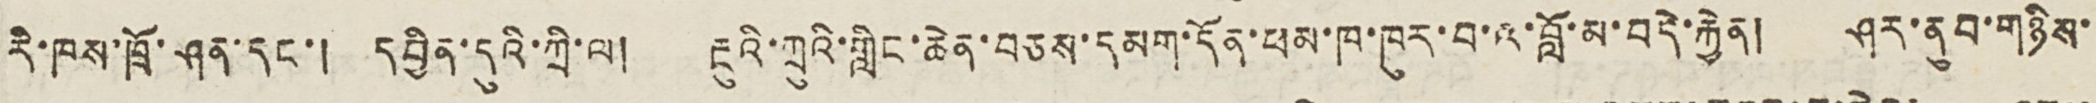རི་ཁས་ཁྲོ་ཤན་དང་། དབྱིན་དུའི་ཀྲི་ལ། རྔུའི་ཀྲུའི་གླིང་ཆེན་བཅས་དམག་དོན་ཕམ་ཁ་ཁུར་བ་འ་བློ་མ་བདེ་རྐྱེན། ཤར་ནུབ་གཉིས་
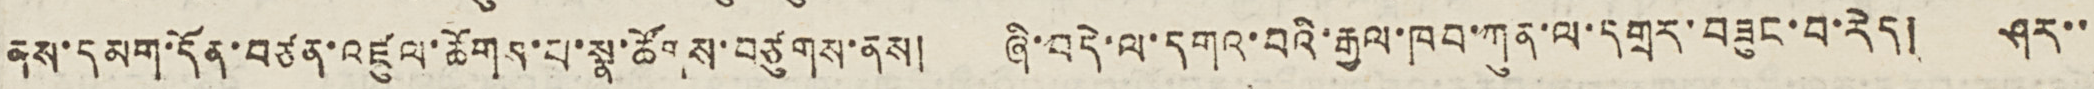ནས་དམག་དོན་བཙན་འཛུལ་ཆོགས་པ་སྣ་ཚོགས་བཙུགས་ནས། ཞི་བདེ་ལ་དགའ་བའི་རྒྱལ་ཁབ་ཀུན་ལ་དགྲར་བཟུང་བ་རེད། ཤར་་
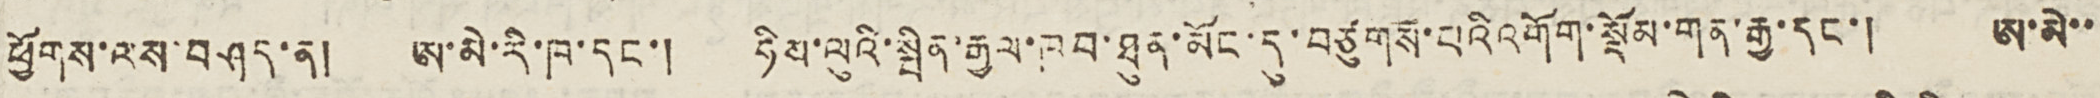ཕྱོགས་ལས་བཤད་ན། ཨ་མེ་རི་ཁ་དང་། ཧིས་ལུའི་སྦིན་རྒྱལ་ཁབ་ཐུན་མོང་དུ་བཙུགས་པའི་འགོག་སྡོམ་གན་རྒྱ་དང་། ཨ་མེ་་
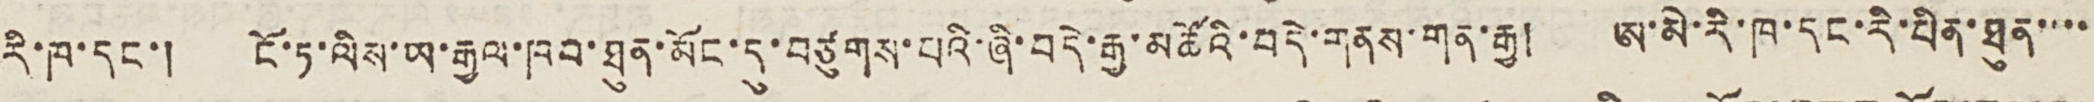རི་ཁ་དང་། ངོ་ཏ་ལིས་ཡ་རྒྱལ་ཁབ་ཐུན་མོང་དུ་བཙུགས་པའི་ཞི་བདེ་རྒྱ་མཚོའི་བདེ་གནས་གན་རྒྱ། ཨ་མེ་རི་ཁ་དང་རི་པིན་ཐུན་་་་
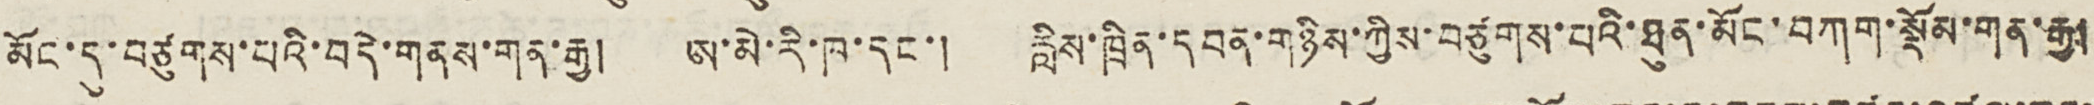མོང་དུ་བཙུགས་པའི་བདེ་གནས་གན་རྒྱ། ཨ་མེ་རི་ཁ་དང་། རླིས་ཁྲིན་དབན་གཉིས་ཀྱིས་བཙུགས་པའི་ཐུན་མོང་བཀག་སྡོམ་གན་རྒྱ།
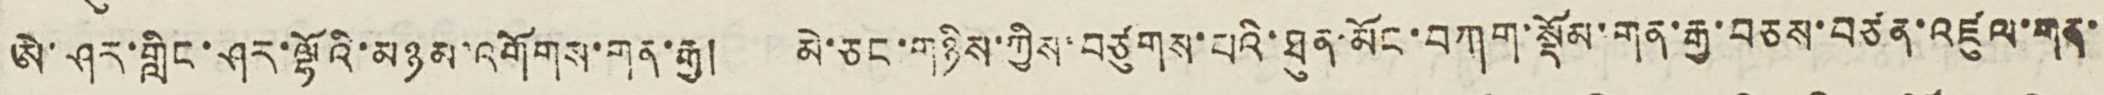ཨེ་ཤར་གླིང་ཤར་ལྷོའི་མཉམ་འགོགས་གན་རྒྱ། མེ་ཅང་གཉིས་ཀྱིས་བཙུགས་པའི་ཐུན་མོང་བཀག་སྡོམ་གན་རྒྱ་བཅས་བཙན་འཛུལ་གན་
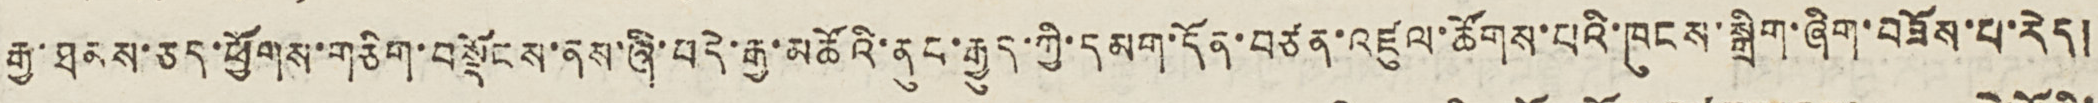རྒྱ་ཐམས་ཅད་ཕྱོགས་གཅིག་བསྡོངས་ནས་ཞི་བདེ་རྒྱ་མཚོའི་ནུབ་རྒྱུད་ཀྱི་དམག་དོན་བཙན་འཛུལ་ཚོགས་པའི་ཁུངས་སྒྲིག་ཞིག་བཟོས་པ་རེད།
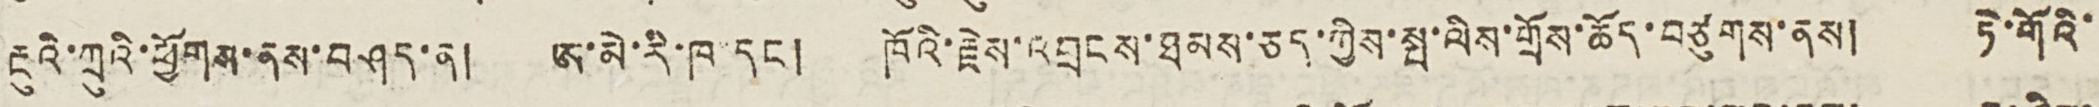རྔུའི་ཀྲུའི་ཕྱོགས་ནས་བཤད་ན། ཨ་མེ་རི་ཁ་དང་། ཁོའི་རྗེས་འབྲངས་ཐམས་ཅད་ཀྱིས་སྤ་ལིས་གྲོས་ཆོད་བཙུགས་ནས། ཏེ་གོའི་
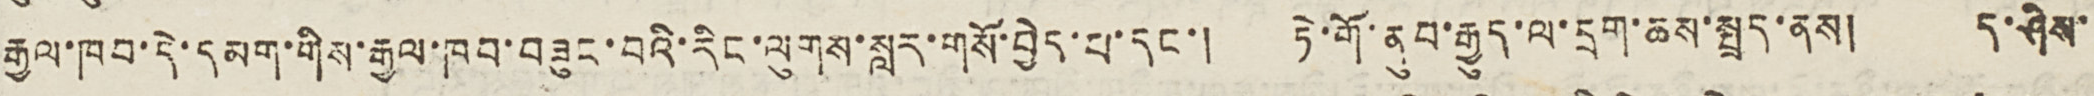རྒྱལ་ཁབ་དེ་དམག་གིས་རྒྱལ་ཁབ་བཟུང་བའི་རིང་ལུགས་སླར་གསོ་བྱེད་པ་དང་། ཏེ་གོ་ནུབ་རྒྱུད་ལ་དྲག་ཆས་སྤྲད་ནས། ད་ཤེས་
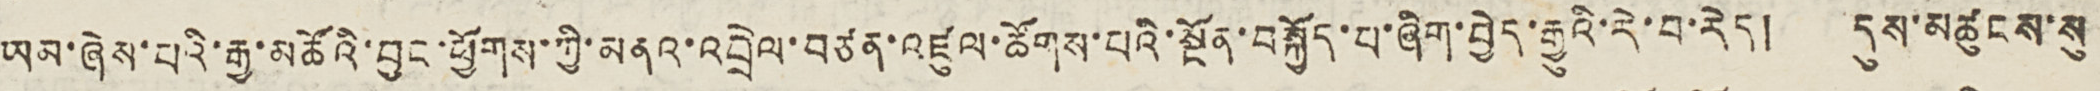ཡམ་ཞེས་པའི་རྒྱ་མཚོའི་བྱང་ཕྱོགས་ཀྱི་མནའ་འབྲེལ་བཙན་འཛུལ་ཚོགས་པའི་སྔོན་བསྐྱོད་པ་ཞིག་བྱེད་རྒྱུའི་རེ་བ་རེད། དུས་མཚུངས་སུ
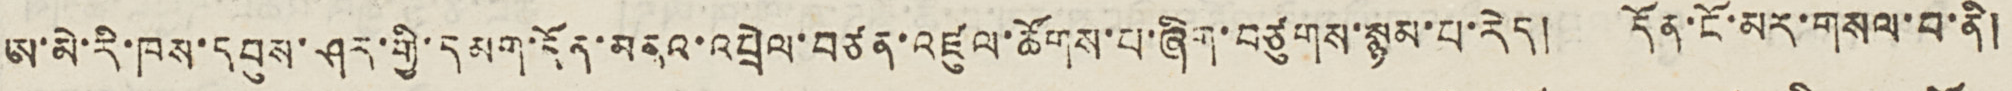ཨ་མེ་རི་ཁས་དབུས་ཤར་གྱི་དམག་དོན་མནའ་འབྲེལ་བཙན་འཛུལ་ཚོགས་པ་ཞིག་བཙུགས་སྙམ་པ་རེད། དོན་ངོ་མར་གསལ་བ་ནི།
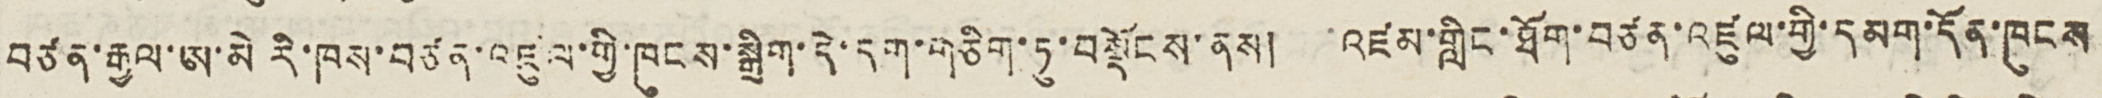བཙན་རྒྱལ་ཨ་མེ རི་ཁས་བཙན་འཛུལ་གྱི་ཁུགས་སྒྲིག་དེ་དག་གཅིག་ཏུ་བསྡོངས་ནས། འཛམ་གླིང་ཐོག་བཙན་འཛུལ་གྱི་དམག་དོན་ཁུངས
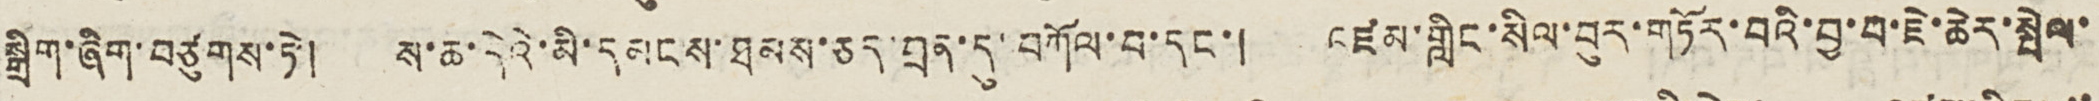སྒྲིག་ཞིག་བཙུགས་ཏེ། ས་ཆ་དེའི་མི་དམངས་ཐམས་ཅད་བྲན་དུ་བཀོལ་བ་དང་། འཛམ་གླིང་སིལ་བུར་གཏོར་བའི་བྱ་བ་ཇེ་ཆེར་སྤེལ་
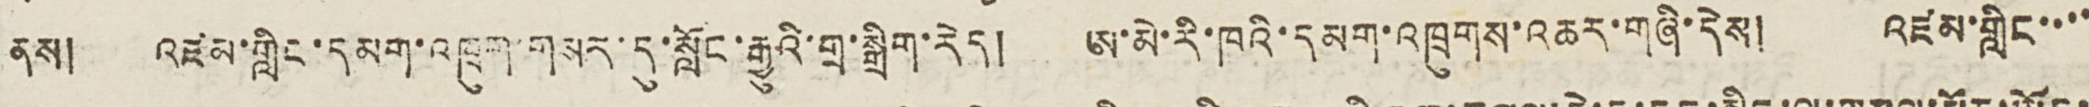ནས། འཛམ་གླིང་དམག་འཁྲུག་གསར་དུ་སློང་རྒྱུའི་གྲ་སྒྲིག་རེད། ཨ་མེ་རི་ཁའི་དམག་འཁྲུགས་འཆར་གཞི་དེས། འཛམ་གླིང་་་་
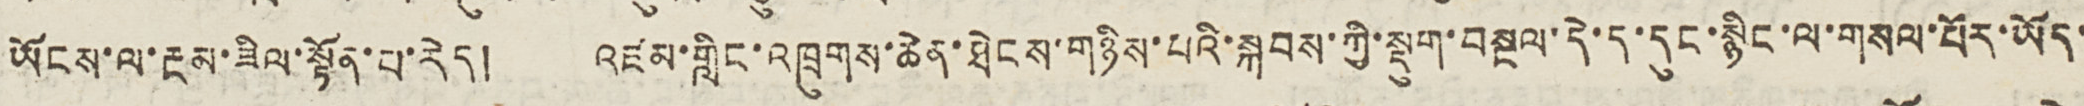ཡོངས་ལ་རྔམ་ཟིལ་སྟོན་པ་རེད། འཛམ་གླིང་འཁྲུགས་ཆེན་ཐེངས་གཉིས་པའི་སྐབས་ཀྱི་སྡུག་བསྔལ་དེ་ད་དུང་སྙིང་ལ་གསལ་པོར་ཡོད་
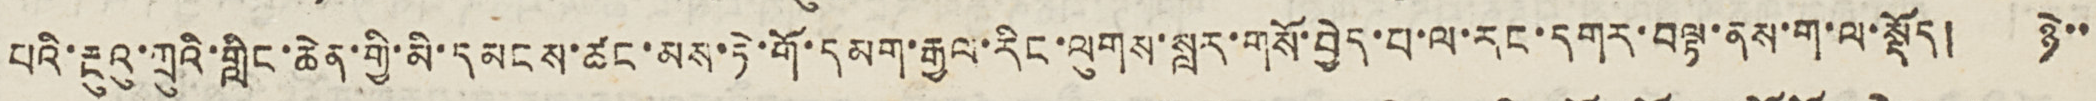པའི་རྔུའུ་ཁྲུའི་གླིང་ཆེན་གྱི་མི་དམངས་ཚང་མས་ཏེ་གོ་དམག་རྒྱལ་རིང་ལུགས་སླར་གསོ་བྱེད་པ་ལ་རང་དགར་བལྟ་ནས་ག་ལ་སྡོད། ཉེ་་
